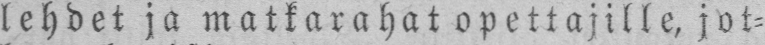lehdet ja matkarahat opettajille, jot-
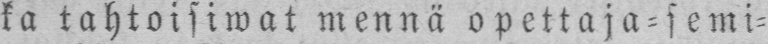ka tahtoisiwat mennä opettaja-semi-
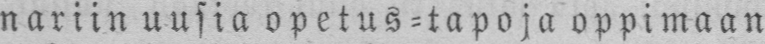nariin uusia opetus-tapoja oppimaan
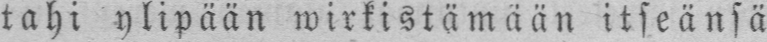tahi ylipään wirkistämään itseänsä
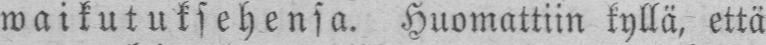waikutuksehensa. Huomattiin kyllä, että
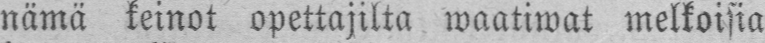nämä keinot opettajilta waatiwat melkoisia
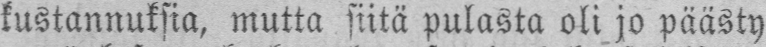kustannuksia, mutta siitä pulasta oli jo päästy
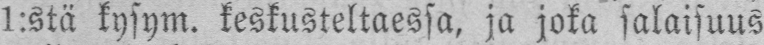1:stä kysym. keskusteltaessa, ja joka salaisuus
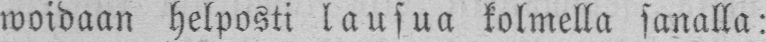woidaan helposti lausua kolmella sanalla:
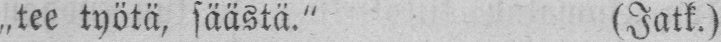„tee työtä, säästä." (Jatk.)
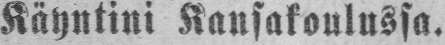Käyntini Kansakoulussa.
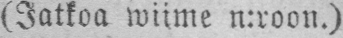(Jatkoa wiime n:roon.)
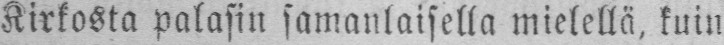Kirkosta palasin samanlaisella mielellä, kuin
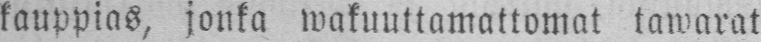kauppias, jonka wakuuttamattomat tawarat
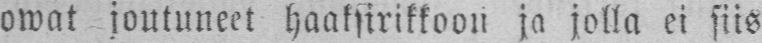owat joutuneet haaksirikkoon ja jolla ei siis
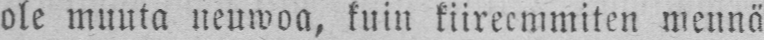ole muuta neuwoa, kuin kiireemmiten mennä
